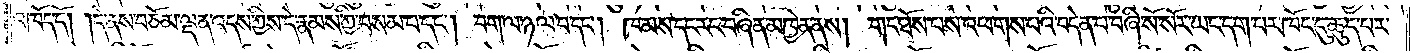འཁོད་དོ། །དེ་ནས་བཅོམ་ལྡན་འདས་ཀྱིས་དེ་རྣམས་ཀྱི་བསམ་པ་དང༌། བག་ལ་ཉལ་བ་དང༌། ཁམས་དང་རང་བཞིན་མཁྱེན་ནས། གང་ཐོས་པས་འཕགས་པའི་བདེན་པ་བཞི་སོ་སོར་ཡང་དག་པར་ཁོང་དུ་ཆུད་པར་
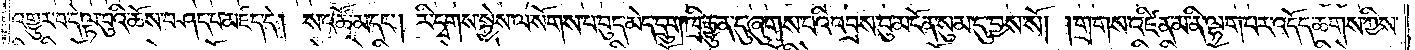འགྱུར་བ་དེ་ལྟ་བུའི་ཆོས་བཤད་པ་མཛད་དེ། ས་འཚོ་མ་དང༌། རི་དྭགས་སྐྱེས་ལ་སོགས་པ་བུད་མེད་དྲུག་ཁྲི་རྒྱུན་དུ་ཞུགས་པའི་འབྲས་བུ་མངོན་སུམ་དུ་བྱས་སོ། །གྲགས་འཛིན་མ་ནི་ལྷག་པར་འདོད་ཆགས་ཀྱིས་
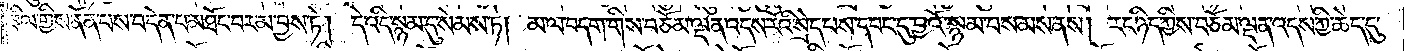ཟིལ་གྱིས་ནོན་པས་བདེན་པ་མཐོང་བར་མ་བྱས་ཏེ། དེ་འདི་སྙམ་དུ་སེམས་ཏེ། མ་ལ་བདག་གིས་བཅོམ་ལྡན་འདས་རོའི་སྲེད་པས་དབང་དུ་བྱའོ་སྙམ་བསམས་ནས། རང་ཉིད་ཀྱིས་བཅོམ་ལྡན་འདས་ཀྱི་ཆེད་དུ་
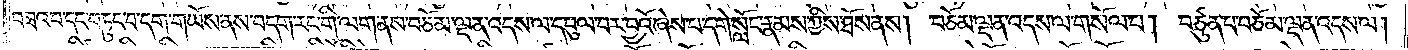བཟའ་བ་དང་བཏུང་བ་དག་གཡོས་ནས་བདག་རང་གི་ལག་ནས་བཅོམ་ལྡན་འདས་ལ་དབུལ་བར་བྱའོ་ཞེས་པ་དགེ་སློང་རྣམས་ཀྱིས་ཐོས་ནས། བཅོམ་ལྡན་འདས་ལ་གསོལ་པ། བཙུན་པ་བཅོམ་ལྡན་འདས་ལ།
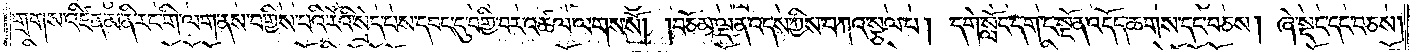གྲགས་འཛིན་མ་ནི་རང་གི་ལག་ནས་བགྱིས་པའི་རོའི་སྲེད་པས་དབང་དུ་བགྱི་བར་འཚལ་ལགས་སོ། །བཅོམ་ལྡན་འདས་ཀྱིས་བཀའ་སྩལ་པ། དགེ་སློང་དག་ང་སྔོན་འདོད་ཆགས་དང་བཅས། ཞེ་སྡང་དང་བཅས།
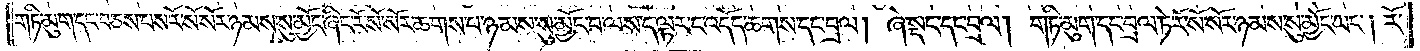གཏི་མུག་དང་བཅས་པས་རོ་སོ་སོར་ཉམས་སུ་མྱོང་ཞིང་རོ་སོ་སོར་ཆགས་པ་ཉམས་སུ་མྱོང་བ་ལས་ད་ལྟར་ང་འདོད་ཆགས་དང་བྲལ། ཞེ་སྡང་དང་བྲལ། གཏི་མུག་དང་བྲལ་ཏེ་རོ་སོ་སོར་ཉམས་སུ་མྱོང་ཡང༌། རོ་
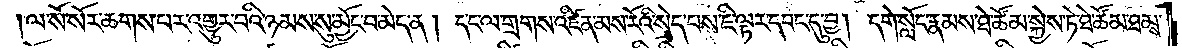།ལ་སོ་སོར་ཆགས་པར་འགྱུར་བའི་ཉམས་སུ་མྱོང་བ་མེད་ན། ད་ང་ལ་གྲགས་འཛིན་མས་རོའི་སྲེད་པས་ཇི་ལྟར་དབང་དུ་བྱ། དགེ་སློང་རྣམས་ཐེ་ཚོམ་སྐྱེས་ཏེ་ཐེ་ཚོམ་ཐམས་
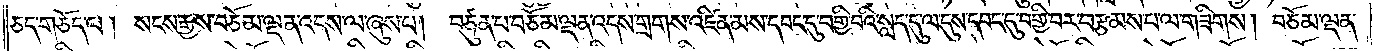ཅད་གཅོད་པ། སངས་རྒྱས་བཅོམ་ལྡན་འདས་ལ་ཞུས་པ། བཙུན་པ་བཅོམ་ལྡན་འདས་གྲགས་འཛིན་མས་དབང་དུ་བགྱི་བའི་སླད་དུ་ལ་དུས་དབང་དུ་བགྱི་བར་བརྩམས་པ་ལ་གཟིགས། བཅོམ་ལྡན་
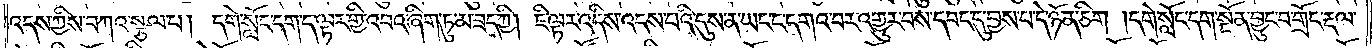འདས་ཀྱིས་བཀའ་སྩལ་པ། དགེ་སློང་དག་ད་ལྟར་གྱི་འབའ་ཞིག་ཏུ་མ་ཟད་ཀྱི། ཇི་ལྟར་འདིས་འདས་པའི་དུས་ན་ཡང་ང་དགའ་བར་འགྱུར་བས་དབང་དུ་བྱས་པ་དེ་ཉོན་ཅིག །དགེ་སློང་དག་སྔོན་བྱུང་བ་གྲོང་རྡལ་
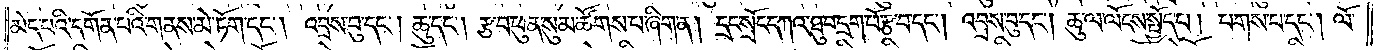མེད་པའི་དགོན་པའི་གནས་མེ་ཏོག་དང༌། འབྲས་བུ་དང༌། ཆུ་དང༌། རྩ་བ་ཕུན་སུམ་ཚོགས་པ་ཞིག་ན། དྲང་སྲོང་དཀའ་ཐུབ་དྲག་པོ་རྩ་བ་དང༌། འབྲས་བུ་དང༌། ཆུ་ལ་ལོངས་སྤྱོད་པ། པགས་པ་དང༌། ལོ་
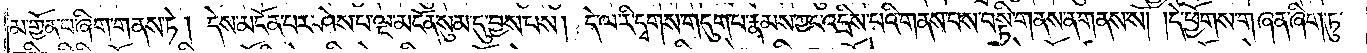མ་གྱོན་པ་ཞིག་གནས་ཏེ། དེས་མངོན་པར་ཤེས་པ་ལྔ་མངོན་སུམ་དུ་བྱས་པས། དེ་ལ་རི་དྭགས་གདུག་པ་རྣམས་ཀྱང་འདྲིས་པའི་གནས་པས་བསྟི་གནས་ན་གནས་སོ། །དེ་ཕྱོགས་གཞན་ཞིག་ཏུ་
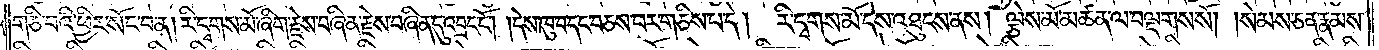གཅི་བའི་ཕྱིར་སོང་བ་ན། རི་དྭགས་མོ་ཞིག་རྗེས་བཞིན་རྗེས་བཞིན་དུ་འབྲང་ངོ༌། །དེ་ཁུ་བ་དང་བཅས་པར་གཅིས་པ་དེ། རི་དྭགས་མོ་དེས་འཐུངས་ནས། ལྕེས་མོ་མཚན་ལ་བལྡགས་སོ། །སེམས་ཅན་རྣམས་
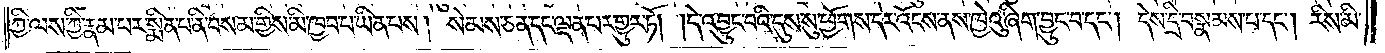ཀྱི་ལས་ཀྱི་རྣམ་པར་སྨིན་པ་ནི་བསམ་གྱིས་མི་ཁྱབ་པ་ཡིན་པས། སེམས་ཅན་དང་ལྡན་པར་གྱུར་ཏོ། །དེ་འབྱུང་བའི་དུས་སུ་ཕྱོགས་དེར་འོངས་ནས་ཁྱེའུ་ཞིག་བྱུང་བ་དང༌། དེས་དྲི་བསྣམས་པ་དང༌། རིས་མི་
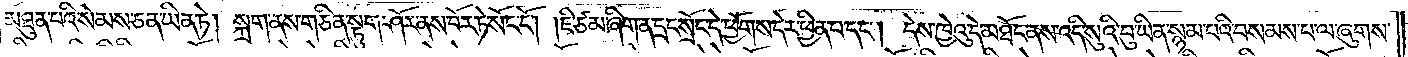མཐུན་པའི་སེམས་ཅན་ཡིན་ཏེ། སྐྲག་ནས་གཅིན་སྟུག་ཤོར་ནས་བོར་ཏེ་སོང་ངོ༌། །ཇི་ཙམ་ཞིག་ན་དྲང་སྲོང་དེ་ཕྱོགས་དེར་ཕྱིན་པ་དང༌། དེས་ཁྱེའུ་དེ་མཐོང་ནས་འདི་སུའི་བུ་ཡིན་སྙམ་པའི་བསམས་པ་ལ་ཞུགས་
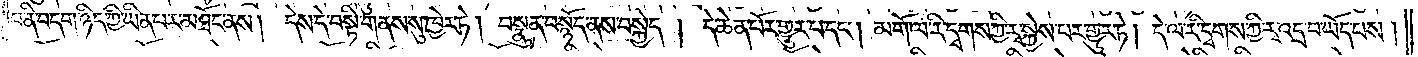པ་ནི་བདག་ཉིད་ཀྱི་ཡིན་པར་མཐོང་ནས། དེས་དེ་བསྟི་གནས་སུ་ཁྱེར་ཏེ། བསྣུན་བསྙོད་ནས་བསྐྱེད། དེ་ཆེན་པོར་གྱུར་པ་དང༌། མགོ་ལ་རི་དྭགས་ཀྱི་རྭ་སྐྱེས་པར་གྱུར་ཏེ། དེ་ལ་རི་དྭགས་ཀྱི་རྭ་འདྲ་བ་ཡོད་པས།
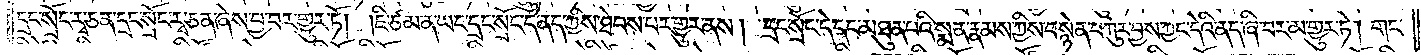དྲང་སྲོང་རྭ་ཅན་དྲང་སྲོང་རྭ་ཅན་ཞེས་བྱ་བར་གྱུར་ཏོ། །ཇི་ཙམ་ན་ཡང་དྲང་སྲོང་དེ་ནད་ཀྱིས་ཐེབས་པར་གྱུར་ནས། དྲང་སྲོང་དེ་དང་མཐུན་པའི་སྨན་རྣམས་ཀྱིས་བསྙེན་བཀུར་བྱས་ཀྱང་དེའི་ནད་ཞི་བར་མ་གྱུར་ཏེ། གང་
